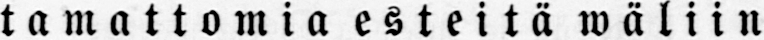tamattomia esteitä wäliin
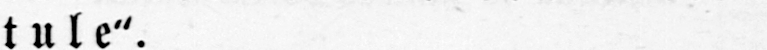tule".
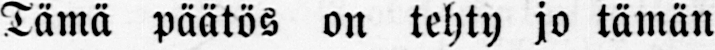Tämä päätös on tehty jo tämän
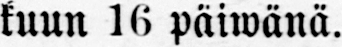kuun 16 päiwänä.
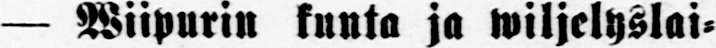— Wiipurin kunta ja wiljelyslai-
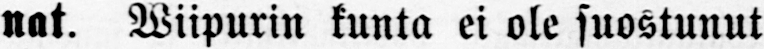nat. Wiipurin kunta ei ole suostunut
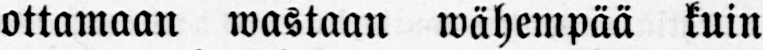ottamaan wastaan wähempää kuin
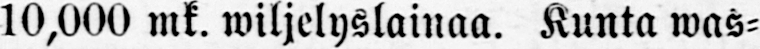10,000 mk. wiljelyslainaa. Kunta was-
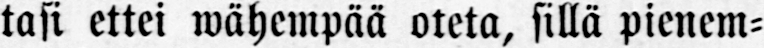tosi ettei wähempää oteta, sillä pienem-
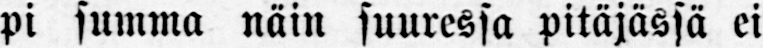pi summa näin suuressa pitäjässä ei
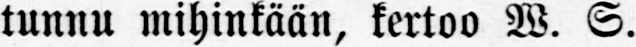tunnu mihinkään, kertoo W. S.
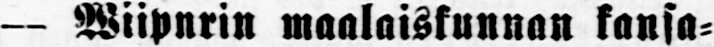— Wiipurin maalaiskunnan kansa-
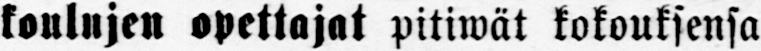koulujen opettajat pitiwät kokouksensa
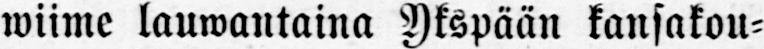wiime lauwantaina Ykspään kansakou-
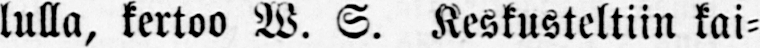lulla, kertoo W. S. Keskusteltiin kai-
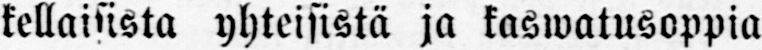kellaisista yhteisistä ja kaswatusoppia
